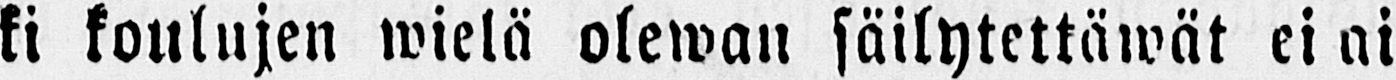ki koulujen wielä olewan säilytettäwät ei ai
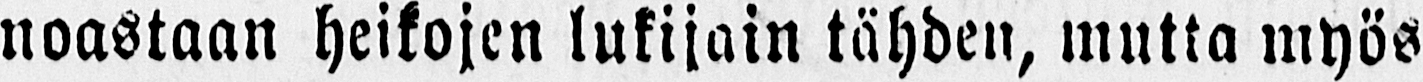noastaan heikojen lukijain tähden, mutta myös
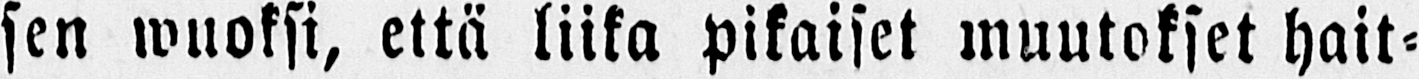sen wuoksi, että liika pikaiset muutokset hait-
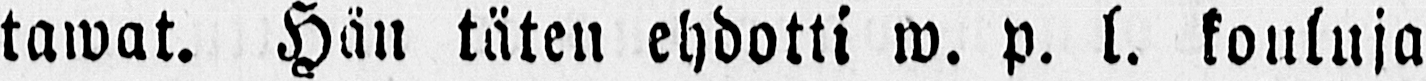tawat. Hän täten ehdotti w. p. l. kouluja
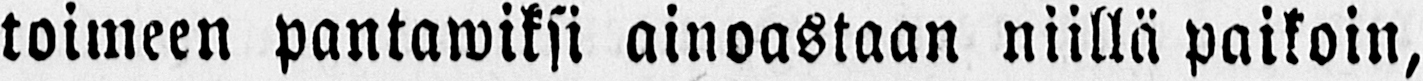toimeen pantawiksi ainoastaan niillä paikoin,
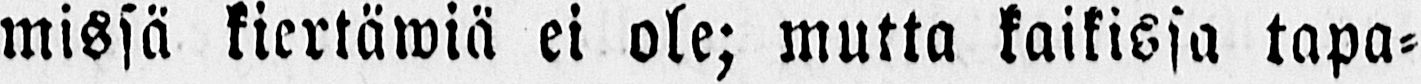missä kiertäwiä ei ole; mutta kaikissa tapa-
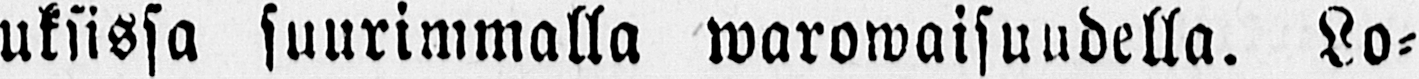uksissa suurimmalla warowaisuudella. Lo-
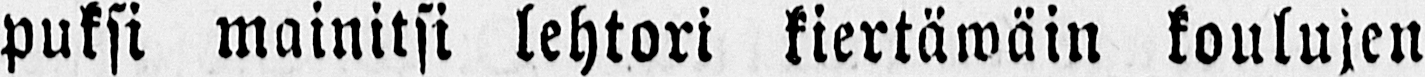puksi mainitsi lehtori kiertäwäin koulujen
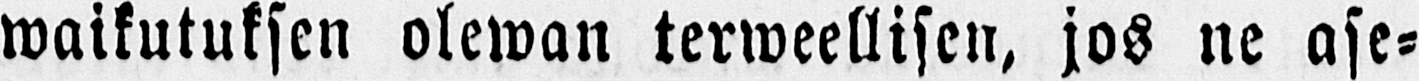waikutuksen olewan terweellisen, jos ne ase-
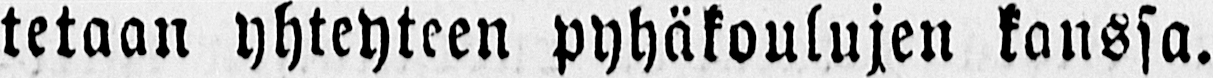tetaan yhteyteen pyhäkoulujen kanssa.
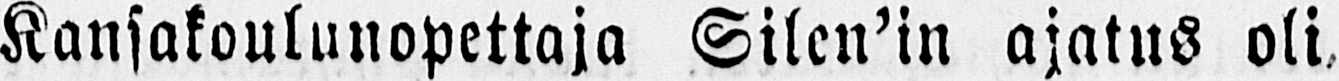Kansakoulunopettaja Silen’in ajatus oli.
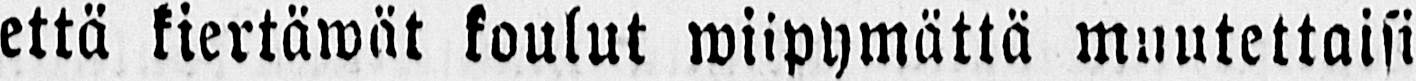että kiertäwät koulut wiipymättä muutettaisi
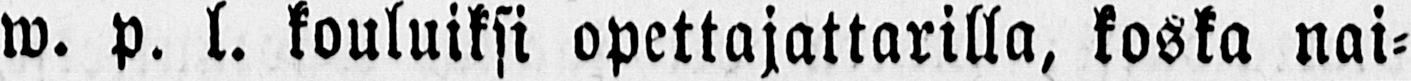w. p. l. kouluiksi opettajattarilla, koska nai-
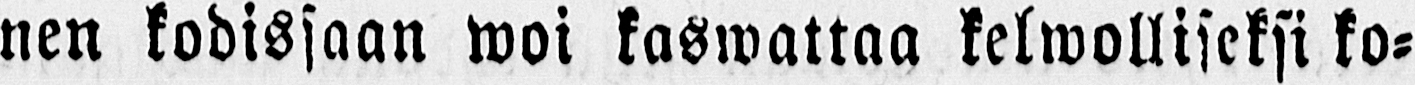nen kodissaan woi kaswattaa kelwolliseksi ko-
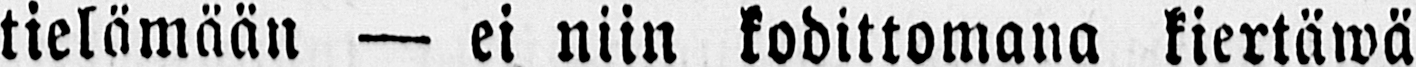tielämään — ei niin kodittomana kiertäwä
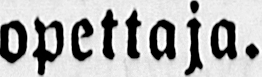opettaja.
